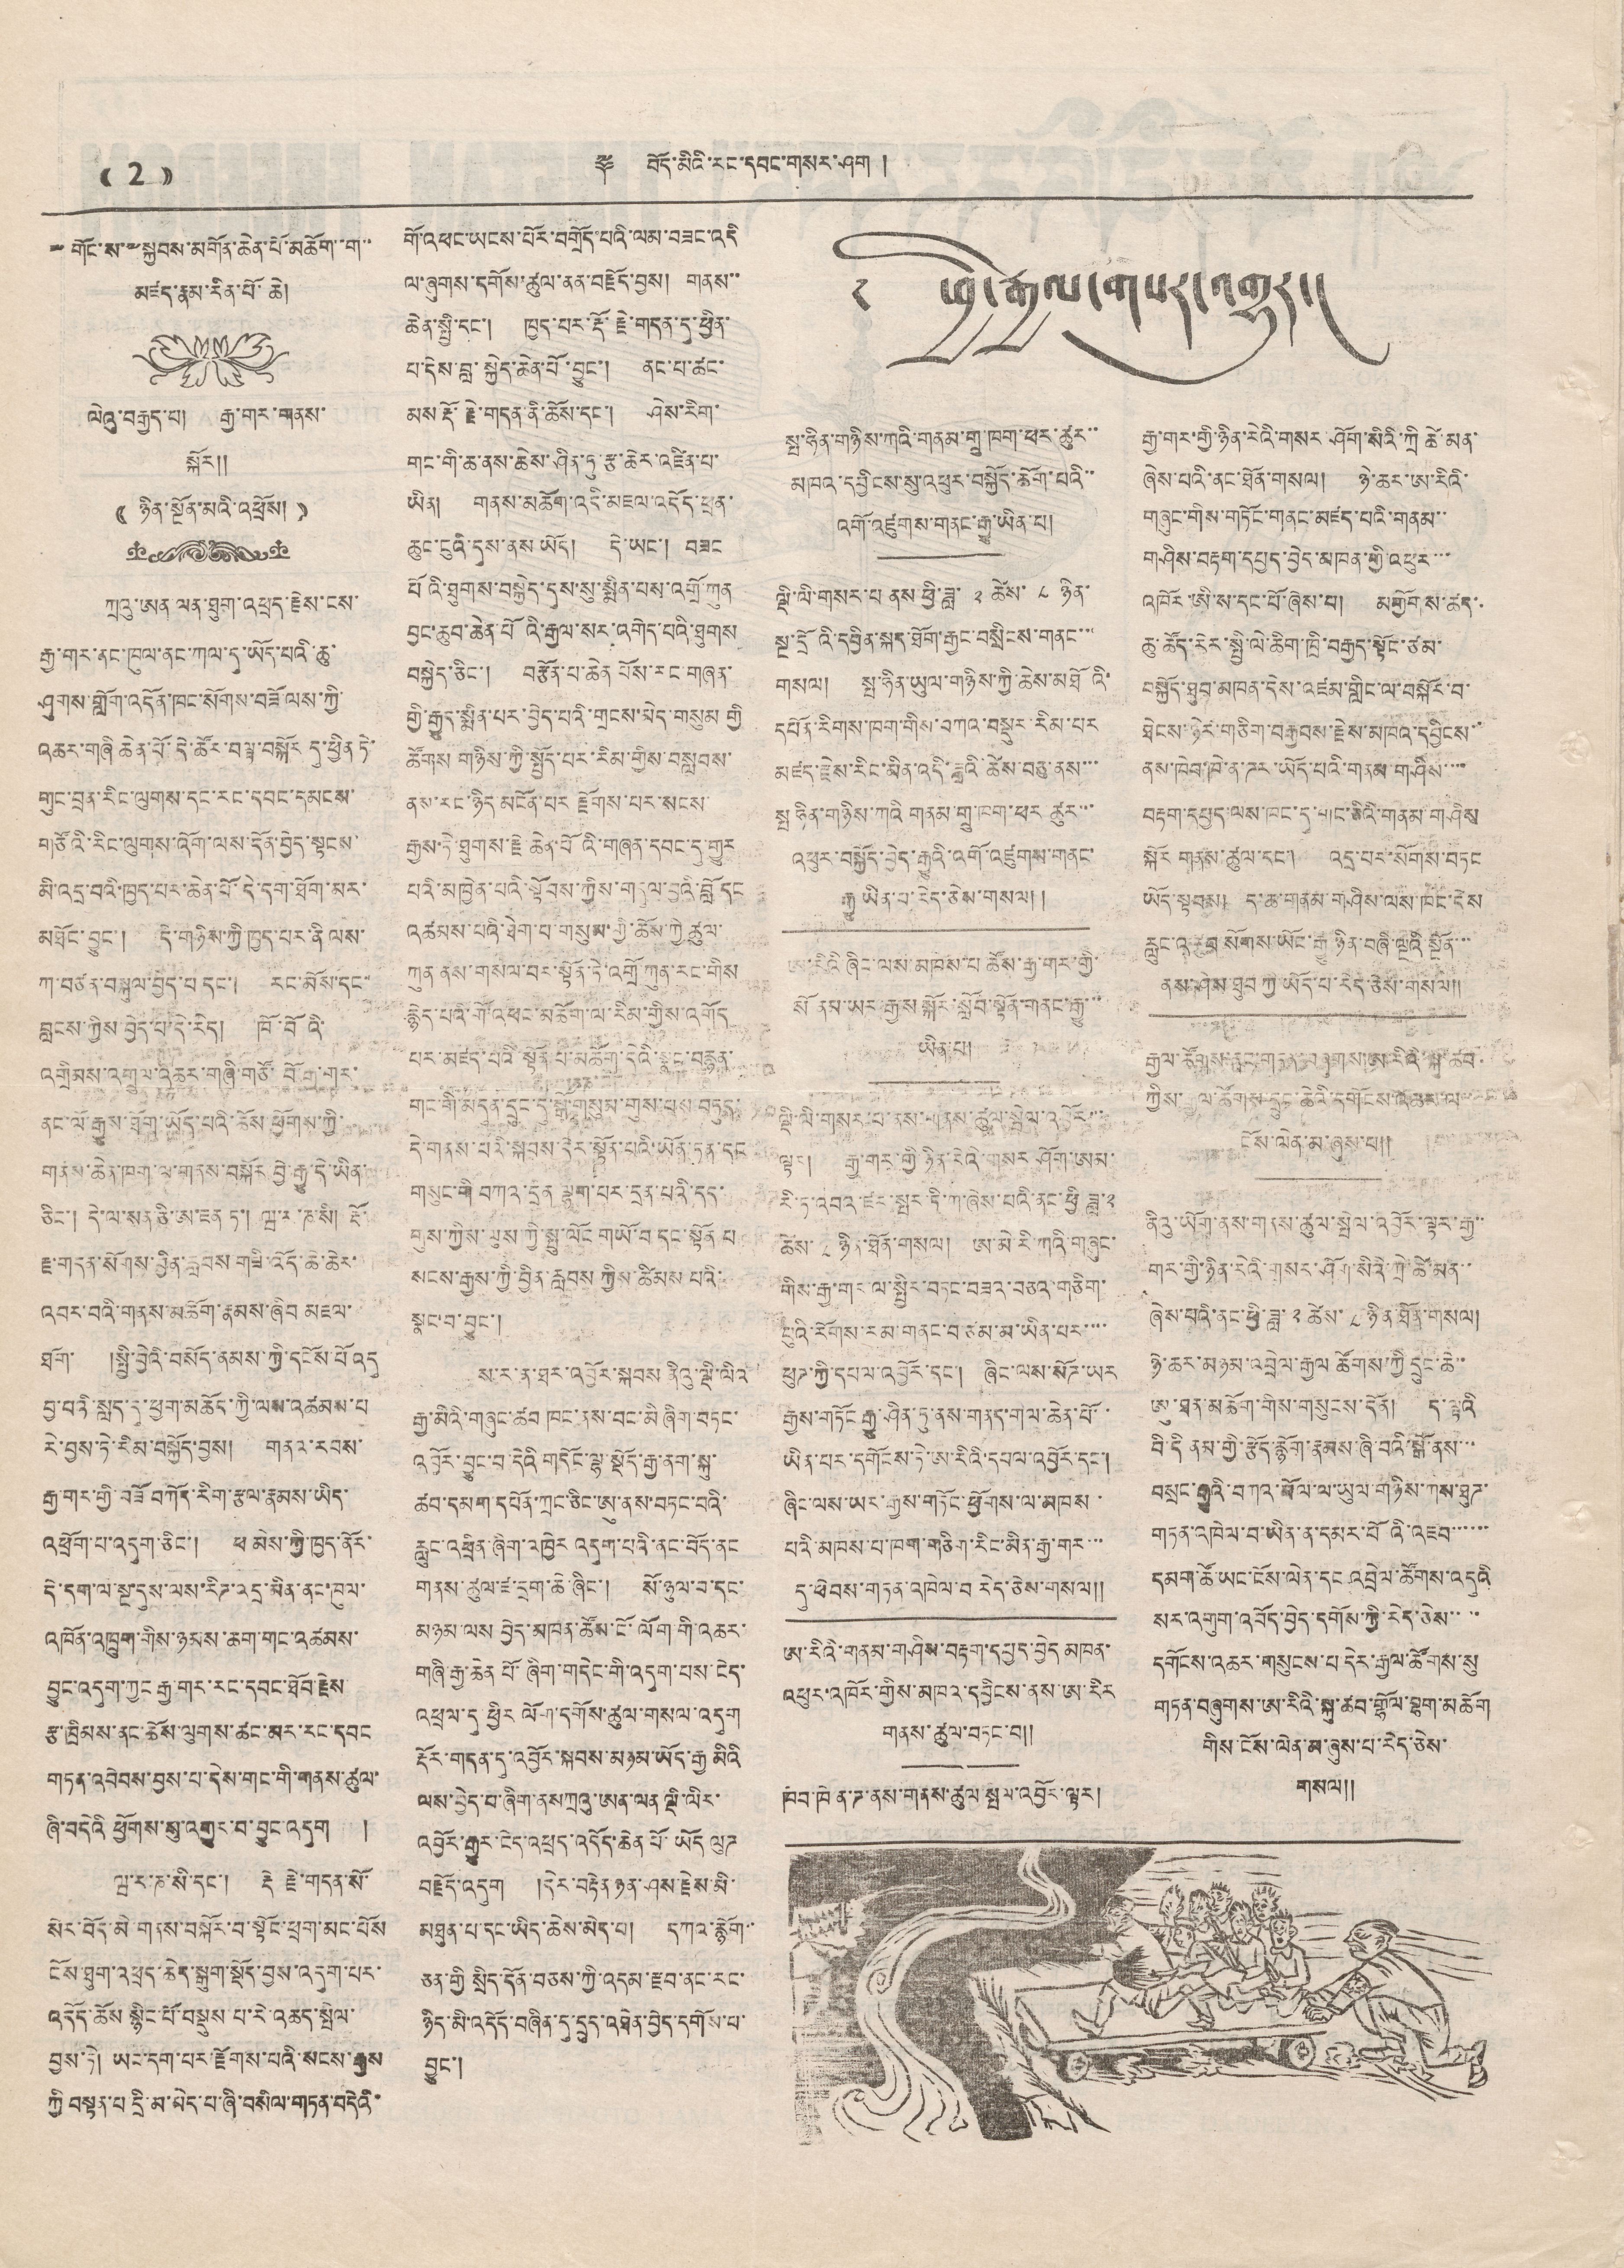(( 2 )) ༈ བོད་མིའི་རང་དབང་གསར་ཤོག །
༈ ༸གོང་ས་༸སྐྱབས་མགོན་ཆེན་པོ་མཆོག་་ག་་
མཛད་རྣམ་རིན་པོ་ཆེ།
ལེའུ་བརྒྱད་པ། རྒྱ་གར་གནས་
སྐོར།།
(( ཉིན་སྔོན་མའི་འཕྲོས། ))
ཀྲའུ་ཨན་ལན་ཐུག་འཕྲད་རྗེས་ངས་
རྒྱ་གར་ནང་ཁུལ་ནང་ཀལ་དུ་ཡོད་པའི་ཆུ་
ཤུགས་གློག་འདོན་ཁང་སོགས་བཟོ་ལས་ཀྱི་
འཆར་གཞི ཆེན་པོ་དེ་ཚོར་བལྟ་བསྐོར དུ་ཕྱིན ཏེ་
གུང་བྲན་རིན་ལུགས་དང་རང་དབང་དམངས་
གཙོའི་རིང་ལུགས་འོག་ལས་དོན་བྱེད་སྟངས་
མི་འདྲ་བའི་ཁྱད་པར་ཆེན་པོ་དེ་དག་ཐོག་མར་
མཐོང་བྱུང་། དེ་གཉིས་ཀྱི་ཁྱད་པར་ནི་ལས་
ཀ་བཙན་བསྐུལ་བྱེད་པ དང་། རང་མོས་དང་
བླངས་ཀྱིས བྱེད་པ་དེ་རེད། ཁོ་བོའི་
འགྲིམས་འགྲུལ་འཆར་གཞི་གཙོ་བོ་རྒྱ་གར་
ནང་ལོ་རྒྱུས་ཐོག་ཡོད་པའི་ཆོས ཕྱོགས་ཀྱི་
གནས་ཆེན་ཁག་ལ་གནས་བསྐོར བྱེད་རྒྱུ་དེ་ཡིན་
ཅིང་། དེ་ལ་སན་ཅི་ཨ་ཇན་ཏ་། ཝ་ར་ཎ་སི། རྡོ་
རྗ་གདན་སོགས་ཕྱིན་རླབས གཟི་འོད་ཆེ་ཆེར་
འབར་བའི་གནས་མཆོག་རྣམས་ཞིབ མཇལ་
ཐོག་ །སྤྱི་བྱེའི་བསོད་ནམས་ཀྱི་དངོས པོ འདུ
བྱ་བའི་སླད་དུ་ཕྱག་མཆོད་ཀྱི་ལས་འཚམས་པ
རེ་བྱས་ཏེ་རིམ་བསྐྱོད་བྱས། གནའ་རབས་
རྒྱ་གར་གྱི་བཟོ བཀོད་རིག་རྩལ་རྣམས་ཡིད་
འཕྲོད་པ་འདུག་ཅིང་། ཕ མེས་ཀྱི་ཁྱད་ནོར་
དེ་དག་ལ་སྔ་དུས་ལས་རིཌ་འདྲ་མིན་ནང་ཁུལ་
འཁོན་འཁྲུག་གིས་ཉམས་ཆག་གང་འཚམས་
བྱུང་འདུག་ཀྱང་རྒྱ་གར་རང་དབང་ཐོབ་རྗེས
རྩ་ཁྲིམས་ནང་ཆོས་ལུགས་ཚང་མར་རང་དབང
གཏན་འབེབས་བྱས་པ་དེས་གང་གི་གནས་ཚུལ་
ཞི་བདེའི ཕྱོགས་སུ་འགྱུར་བ་བྱུང་འདུག །
ཝ་ར་ཎ་སི་དང་། རྡོ རྗེ་གདན་སོ་
སེར་བོད་མི་གནས་བསྐོར་བ་སྟོང་ཕྲག་མང་པོས
ངོས་ཐུག་འཕྲན་ཆེད་སྒྱུག་སྡོད་བྱས་འདུག་པར་
འདོད་ཆོས སྙིང་པོ་བསྡུས པ་རེ་འཆད་སྤེལ་
བྱས་ཏེ། ཡང་དག་པར་རྫོགས་པའི་སངས་རྒྱས
ཀྱི བསྟན་པ་དྲི་མ་མེད་པ་ཞི་བསིལ་གཏན་བདེའི་
གོ་འཕང་ཡངས་པོར་བགྲོད་པའི་ལམ་བཟང་འདི
ལ་ཞུགས་དགོས་ཚུལ་ནན་བརྗོད་བྱས། གནས་་
ཆེན་སྤྱི་དང་། ཁྱད་པར་རྡོ་རྗེ་གདན་དུ་ཕྱིན་
པ་དེས་བླ་སྐྱེད་ཆེན་པི་བྱུང་། ནང་པ་ཚང་
མས རྡོ་རྗེ་གདན་ནི་ཆོས་དང་། ཤེས་རིག་
གང་གི་ཆ་ནས་ཆེས་ཤིན་ཏུ་རྩ་ཆེར་འཛིན་པ་
ཡིན། གནས་མཆོག་འདི་མཇལ་འདོད་ཕྲན་
ཆུང་ངུའི་དུས་ནས་ཡོད། དེ་ཡང་། བཟང
པོའི་ཐུགས་བསྐྱེད་དུས་སུ་སྨིན་པས་འགྲོ་ཀུན
བྱང་ཆུབ་ཆེན་པོའི་རྒྱལ་སར་འགེད་པའི་ཐུགས
བསྐྱེད་ཅིང་། བརྩོན་པ་ཆེན པོས་རང་གཞན་
གྱི་རྒྱུད་སྨིན་པར་བྱེད་པའི་གྲངས་མེད་གསུམ གྱི
ཚོགས གཉིས་ཀྱི་སྤྱོད་པར་རིམ་གྱིས་བསླབས་
ནས་རང་ཉིད མངོན་པར རྫོགས་པར་སངས་
རྒྱས་ཏེ་ཐུགས་རྗེ ཆེན་པོའི་གཞན་དབང་དུ་གྱུར
པའི་མཁྱེན་པའི་སྟོབས་ཀྱིས་གདུལ་བྱའི་བློ དང
འཚམས་པའི་ཐེག་པ་གསུམ་གྱི་ཆོས་ཀྱི ཚུལ་
ཀུན་ནས་གསལ་བར་སྟོན་དེ་འགྲོ་ཀུན་རང་གིས་
རྙེད་པའི་གོ་འཕང་མཆོག་ལ་རིམ་གྱིས་འགོད
པར་མཛད་པའི་སྟོན་པ་མཆོག་དེའི་སྣང་བརྙན་
གང་གི་མདིན་དྲུང་དུ་སྒོ་གསུམ་གུས་པས་བཏུད་
དེ་གནས་པའི་སྐབས་དེར་སྟོན་པའི་ཡོན་ཏན་དང
གསུང་གི བཀའ་དྲན་ལྷག་པར་དྲན་པའི་དད་
གུས་ཀྱིས་ལུས་ཀྱི་སྤུ་ལོང་གཡོ་བ དང་སྟོན པ
སངས་རྒྱས་ཀྱི་བྱིན་རླབས ཀྱིས་ཚིམས པའི་
སྣང་བ་བྱུང་།
ས་ར་ན་ཐར་འབྱོར་སྐབས ནིའུ་སྡི་ལིའ
རྒྱ་མིའི་གཞུང་ཚབ ཁང་ནས་བང་མི ཞིག་བཏང་
འབྱོར་བྱུང་བ་དེའི་གདོང་ལྷ་སྡོད་རྒྱ་ནག་སྐུ་
ཚབ་དམག་དཔོན་ཀྲང་ཅིང་ཨུ་ནས་བཏང་བའི་
རླུང་འཕྲིན་ཞིག་འཁྱེར འདུག་པའི་ནང་བོད་ནང
གནས་ཚུལ་ཛ་དྲག་ཆེ་ཞིང་། སོ་ཉུང་བ་དང་
མཉམ་ལས བྱེད་མཁན་ཚོས་ངོ་ལོག་གི་འཆར་
གཞི་རྒྱ་ཆེན པོ་ཞིག་གདེང་གི་འདུག་པས་ངེད་
འཕྲལ་དུ་ཕྱིར ལོག་དགོས་ཚུལ་གསལ་འདུག
རྡོར་གདན་དུ་འབྱོར་སྐབས་མཉམ་ཡོད་རྒྱ མིའི
ལས་བྱེད་པ་ཞིག་ནས ཀྲའུ་ཨན་ལན ལྡི་ལིར་
འབྱོར་རྒྱུར་ངེད་འཕྲད་འདོད་ཆེན་པོ་ཡོད ལུཌ
བརྗོད་འདུག །དེར་བརྟེན་ཉན་ཤས་རྗེས་མི་
མཐུན་པ་དང་ཡིད་ཆེས་མེད་པ། དཀའ་རྙོག་་
ཅན་གྱི སྲིད་དོན་བཅས་ཀྱི་འདམ་རྫབ་ནང་རང་
ཉིད་མི་འདོད་བཞིན་དུ་དྲུང་འཐེན་བྱེད་དགོས་པ་
བྱུང་།
༄ ཕྱི་རྒྱལ་གསར་འགྱུར།
སྤ་ཧིན་གཉིས་ཀའི་གནམ་གྲུ་ཁག་ཕར་ཚུར་་
མཁས་དབྱིངས་སུ་འཕུར་བསྐྱོད་ཆོག་པའི་་
འགོ་འཛུགས་གནང་རྒྱུ་ཡིན་པ།
ལྡི་ལི་གསར་པ ནས་ཕྱི་ཟླ་ ༢ ཚེས་༨ ཉིན་
སྔ་དྲོའི་དབྱིན་སྐད་ཐོག་རྒྱང་བསྲིངས་གནང་་་
གསལ། སྤ་ཧིན་ཡུལ་གཉིས་ཀྱི་ཆེས་མཐོའི་
དཔོན་རིགས་ཁག་གིས་བཀའ་བསྡུར་རིམ་པར
མཛད་རྗེས་རིང་མིན་འདི་ཟླའི་ཚེས་བཅུ་ནས་་་
སྤ ཧིན་གཉིས་ཀའི གནམ་གྲུ་ཁག་ཕར ཚུར་་་
འཕུར་བསྐྱོད་བྱེད་རྒྱུའི་འགོ་འཛུགས་གནང་
རྒྱུ ཡིན་པ་རེད་ཅེས་གསལ།།
ཨ་རིའི་ཞིང་ལས་མཁས་པ་ཆོས་རྒྱ་གར་གྱི་
སོ ནམ་ཡར་རྒྱས་སྐོར་སྒྲོབ་སྟོན་གནང་རྒྱུ་་་
ཡིན་པ།
ལྡི་ལི་གསར་པ་ནས་གནས་ཚུལ་སྤེལ་འབྱོར་་་
ལྟར། རྒྱ་གར་གྱི་ཉིན་རེའི་གསར ཤོག་ཨམ་
རི་ཏ་འབའ་ཛམ་སྤར་ཏི་ཀ་ཞེས་པའི་ནང་ཕྱི ཟླ་༢
ཚེས་ ༨ ཉིན་ཐོན་གསལ། ཨ་མེ་རི་ཀའི་གཞུང་
གིས་རྒྱ་གར་ལ་སྤྱིར་བཏང་བཟའ་བཅའ་གཅིག་
པུའི་རོགས་རམ་གནང་བ་ཙམ་མ་ཡིན་པར་་་་
ཕུཌ་ཀྱི་དཔལ་འབྱོར་དང་། ཞིང་ལས་སོཌ་ཡར་
རྒྱས་གཏོང་རྒྱ་ཤིན་ཏུ་ནས་གནད་གལ་ཆེན་པོ་་
ཡིན་པར་དགོངས་ཏེ་ཨ་རིའི་དཔལ་འབྱོར་དང་།
ཞིང་ལས་ཡར་རྒྱས་གཏོང་ཕྱོགས་ལ་མཁས་
པའི་མཁས་པ་ཁག་གཅིག་རིང་མིན་རྒྱ་གར་་་
དུ་ཕེབས་གཏན་འཁེལ་བ རེད་གསལ།།
ཨ་རིའི་གནམ་གཤིས་བརྟག་དཔྱད་བྱེད་མཁན་
འཕུར་འཁོར་གྱིས་མཁའ་དབྱིངས་ནས་ཨ་རིར་
གནས་ཚུལ་བཏང་བ།།
ཁེབ་ཁེ ན་ཌ་ནས་གནས་ཚུལ་སྤལ་འབྱོར་ལྟར།
རྒྱ་གར་གྱི་ཉིན་རེའི་གསར་ཤོག་སིའི་ཀྲི ཚེ་མན་
ཞེས་པའི་ནང་ཐོན་གསལ། ཉེ་ཆར་ཨ་རིའི་
གཞུང་གིས་གཏོང་གནང་མཛད་པའི་གནམ་་
གཤིས་བརྟག་དཔྱད་བྱེད་མཁན་གྱི་འཕུར་་་
འཁོར་ཨི་ས་དང་ཞེས་པ། མགྱོགས་ཚད་
ཆུ་ཚོུད་རེར་སྤྱི་ལེ་ཆིག་ཁྲི་བརྒྱད་སྟོང་ཙམ་
བསྐྱོད་ཐུབ་མཁན་དེས་འཛམ་གླིང་ལ་བསྐོར་བ་
ཐེངས་ཉེར་གཅིག་བརྒྱབས་རྗེས་མཁའ་དབྱིངས་
ནས་ཁེབ་ཁེ་ན་ཌར་ཡོད་པའི་གནས་གཤིས་་་་
བརྟག་དཔྱད་ལས་ཁང་དུ་གང་ཅིའི་གནམ་གཤིས
སྐོར གནས་ཚུལ་དང་། འདྲ་པར་སོགས་བཏང
ཡོད་སྟབས། ད་ཆ་གནམ་གཤིས་ལས་ཁང་དེས་
རླུང་འཚུབ་སོགས་ཡོང་རྒྱུ་ཉིན་བཞི་ལྔའི སྔོན་་་
ནས་ཤེས་ཐུབ་ཀྱི་ཡོད་པ་རེད་ཅེས་གསལ།།
རྒྱལ་ཚོགས་ནང་གདན་བཞུགས་ཨ་རིའི་སྐུ་ཚབ
ཀྱིས་རྒྱལ་ཚོགས་དྲུག་ཆེའུ་དགོངས་འཆམ་ལ
ངོས་ལེན་མ་ཞུས་པ།།
ནིའུ་ཡོག་ནས་གནས་ཚུལ་སྤེལ་འབྱོར་ལྟར་རྒྱ་་
གར་གྱི་ཉིན་རེའི་གསར་ཤོག་སིའི་ཀྲེ་ཚེ་མན་་
ཞེས་པའི་ནང་ཕྱི་ཟླ་ ༢ ཚེས་ ༨ ཉིན་ཐོན་གསལ།
ཉེ་ཆར་མཉམ་འབྲེལ་རྒྱལ ཚོགས་ཀྱི དྲུང་ཆེ་་
ཨུ་ཐན་མཆོག་གིས་གསུང་དོན། ད་ལྟའི
བི་དི ནམ་གྱི་རྩོད་རྙོགས་རྣམས་ཞི་བའི་སྒོ་ནས་་་
བསྲང་རྒྱུའི་བཀའ་བོལ་ལ་ཡུལ་གཉིས་ཀས་ཐུཌ་
གཏམ་འཁེལ་བ་ཡིན་ན་དམར་པོའི་འཇབ་་་་་་
དམག་ཚོ་ཡང་ངོས་ལེན་དང་འབྲེལ་ཚོགས་འདུའི
སར་འགུག་འབོད་བྱེད་དགོས་ཀྱི་རེད་ཅེས་་་་
དགོངས་འཆར་གསུངས་པ་དེར་རྒྱལ་ཚོགས་སུ
གཏན་བཞུགས་ཨ་རིའི་སྐུ་ཚབ་གྷོལ་བྷག་མཆོག
གིས་ངོས་ལེན་མ་ཞུས་པ་རེད་ཅེས་
གསལ།།
